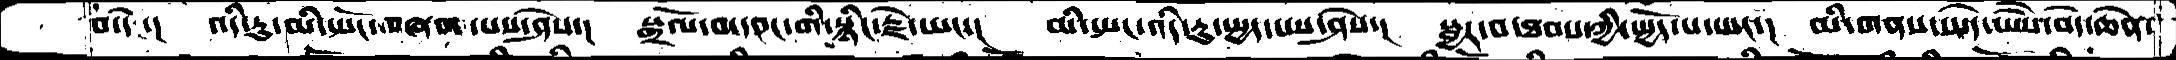བ་དེ་།  འདི་རུ་མི་སྤོང་བཞག་པས་ཤེས་།  སྒྲོལ་བ་དབང་གི་སྙིང་རྗེ་ཡང་།  མི་སྤང་འདི་རུ་སྤྱད་པས་ཤེས་།  སྦྱར་བ་ཐབས་ཀྱི་སྤྱོད་པ་ཡང་།  མི་གནས་ས་དེ་ཡཻས་བདེ་ཆེན་
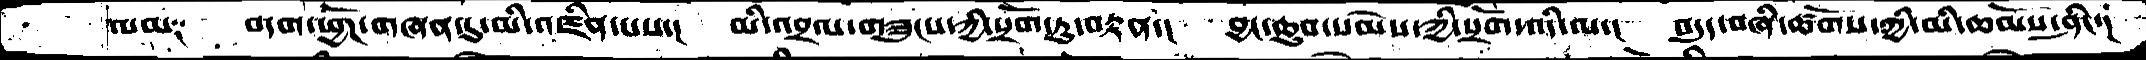ལམ༑   བདག་ཕྱོཌ་གཞན་དུ་མི་འཛིན་པས་།  མི་འབྲལ་གཟུངས་ཀྱི་སྲོག་ཏུ་བརྟན་།  བྱང་ཆུབ་སེམས་ཀྱི་སྲོག་འདི་ལ་།   བདུད་བཞི་ཚོགས་ཀྱི་མི་ཆོམས་ཤིང་།
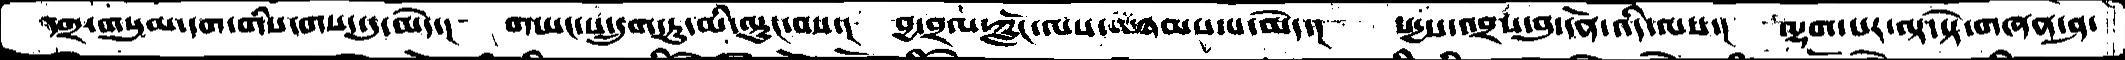དགྲ་གསུམ་དག་གིས་གསད་དུ་མེད་།   གཡང་ས་དྲུག་ཏུ་མི་ལྟུང་བས་།  བྱ་བྲལ་ཀློང་ལས་ཉམས་པ་མེད་།  སདྱས་འབྲས་བུ་དོན་འདི་ལས་།  ལྷག་པར་ལྟ་སྟེ་གཞན་ཤ་
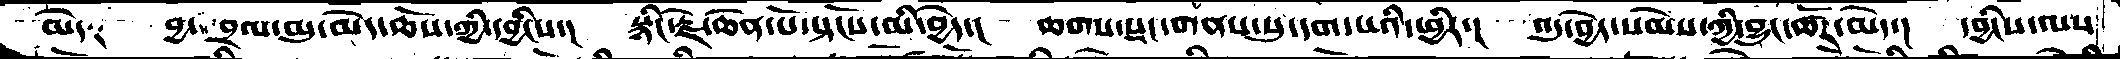མེད༑   བྱ་བྲལ་མུ་མེད་ཆོས་ཀྱི་དབྱིངས་།  སྙིང་རྗེ་ཆེན་པོ་སྟོངས་མི་བྱེད་།  ཆགས་སྡང་གནས་སུ་དག་པའི་ཕྱིར་།  འདུ་བྱེད་སེམས་ཀྱི་བྱུང་ཚོར་མེད་།  དབྱིངས་ལས
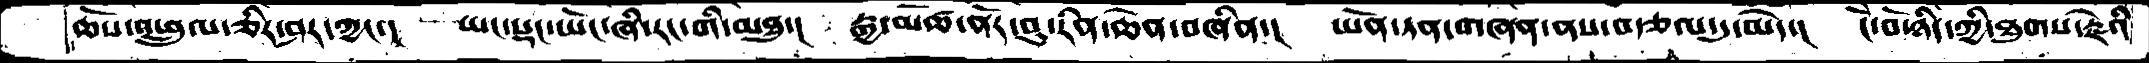ཆོས་འཕྲུལ་ཅིར་ཤར་ཀྱང་།  ཡང་སྡང་ཡོང་ཞི་རང་གི་མཐུ་།  རྒྱ་མཚོ་ནོར་བུ་རིན་ཆེན་བཞིན་།  ཡོན་ཏན་གཞན་ནས་བརྩལ་དུ་མེད་།  ངོ་བོ་ཉིད་ཀྱི་ཐུགས་རྗེའི
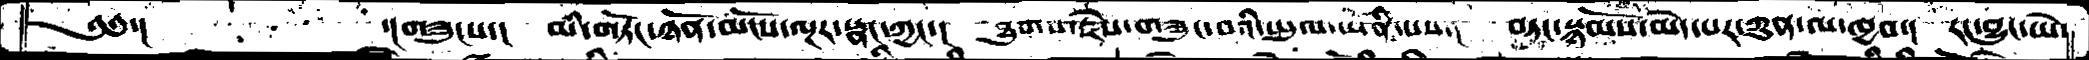༄༅་།        ་།གཟུངས་།  མི་གཏོང་ཉོན་མོངས་ལྔར་སྣང་ཀྱང་།  ཐུགས་རྗེས་གཟུང་བའི་ཡུལ་ཡིན་པས་།  བཏང་སྙོམས་མེད་པར་ཀུན་ལ་ཁྱབ་།  རང་བྱུང་ཡེ་
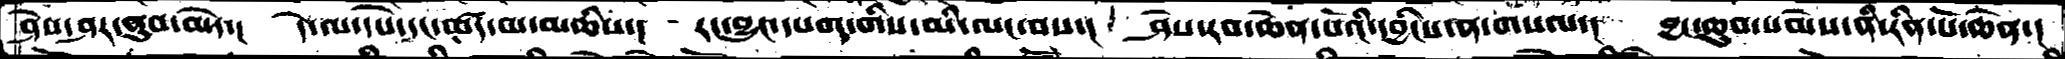ཤེས་ཤར་ནུབ་མེད་།  དེ་ལ་དཔེ་དང་ཚད་མ་མཆིས་།  རང་བྱུང་དཔག་གིས་མི་ལང་བས་།  ཤེས་རབ་ཆེན་པོའི་དབྱིངས་ན་གསལ་།  བྱང་ཆུབ་སེམས་ནི་རིན་པོ་ཆེན་།
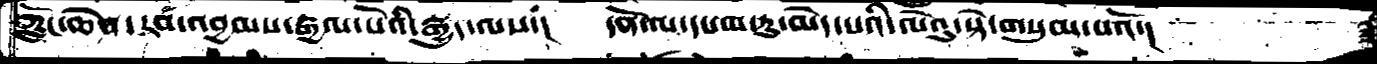ཀློང་ཆེན་རབ་འབྱྲམས་རྒྱལ་པོའི་རྒྱུད་ལས་།  དོན་ལ་དཔག་ཏུ་མེད་པའི་ལེའུ་སྟེ་གསུམ་པའོ་།
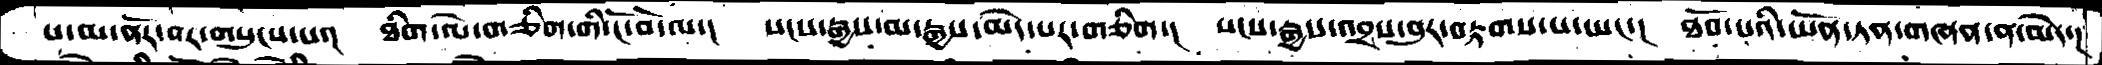པ་མ་ནོར་བར་གསུངས་པ་།  ཐིག་ལེ་གཅིག་གི་ངོ་བོ་ལ་།  སངས་རྒྱས་མ་རྒྱས་མེད་པར་གཅིག་།  སངས་རྒྱས་འབྲས་བུར་བརྟགས་པ་ཡང་།  ཐོབ་པའི་ཡོན་ཏན་གཞན་ན་མེད་།
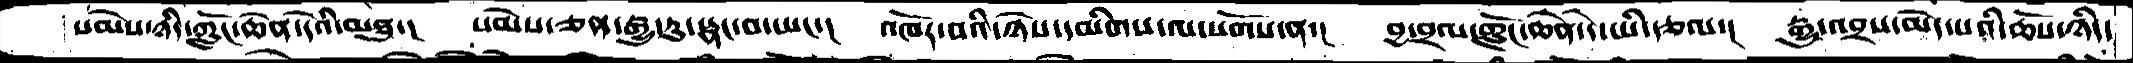སེམས་ཉིད་ཀློང་ཆེན་དེའི་མཐུ་།  སེམས་ཅན་རྒྱུ་རུ་སྣང་བ་ཡང་། འཁོར་བའི་ཉེས་དམིགས་ལ་སོགས་ན་།  བྱ་བྲལ་ཀློང་ཆེན་དེ་ཡི་རྩལ་།  རྒྱུ་འབྲས་མེད་པའི་ཆོས་ཉིད་
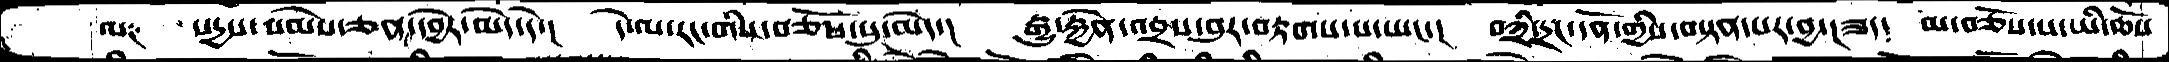ལ༑  སདྱས་སེམས་ཅན་དབྱེར་མེད་དེ་།  དེ་ལ་རང་གིས་བཅོས་སུ་མེད་།  རྒྱུ་རྐྱེན་འབྲས་བུར་བརྟགས་པ་ཡང་།  བཀྲི་དྲང་དོན་གྱིས་བསྟན་པར་བྱ་།ཟད༴ མ་བཅོས་པ་ཡི་ཆོས་
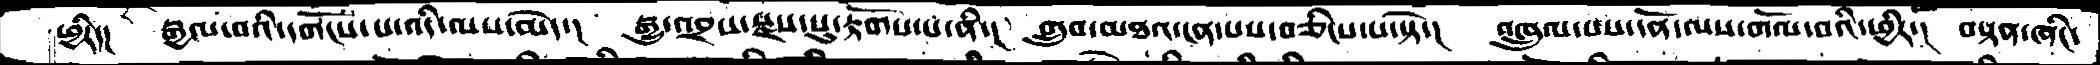ཕྱིར་།  རྒྱལ་བའི་དགོངས་པ་འདི་ལས་མེད་།  རྒྱུ་འབྲས་སྫས་སུ་རྟོགས་པ་ནི་།  གྲུབ་མཐའ་ངན་པས་བཅིངས་པ་སྟེ་།  འཁྲུལ་པས་དོན་ལས་གོལ་བའི་ཕྱིར་།  བསྟན་ཞིང་
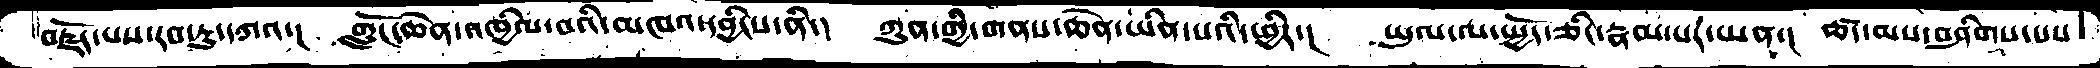བརྗོད་པས་རབ་ཏུ་དཀའ་།  ཀློང་ཆེན་འཁྱིལ་བའི་མཁའ་དབྱིངས་ནི་།  ཀུན་གྱི་གནས་ཆེན་ཡིན་པའི་ཕྱིར་།  ཡུལ་ལ་སྤྱོད་ཅིང་རྣམ་པར་ཡན་།  ཚད་མས་བཤིགས་པས་
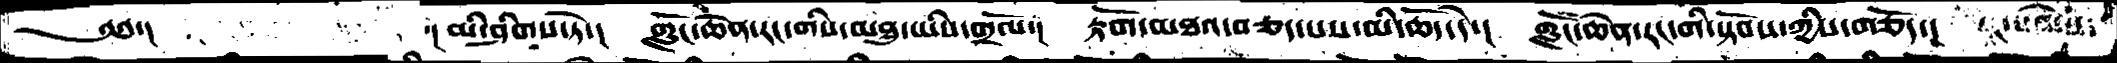༄༅་།  །མི་ཤིགས་ཏེ་། ཀློང་ཆེན་རང་གིས་མཐུ་ཡིས་གྲོལ་། རྟོག་མཐའ་བཅད་པས་མི་ཆོད་དེ་། ཀློང་ཆེན་རང་གི་སྟོབས་ཀྱིས་གཅོད་།
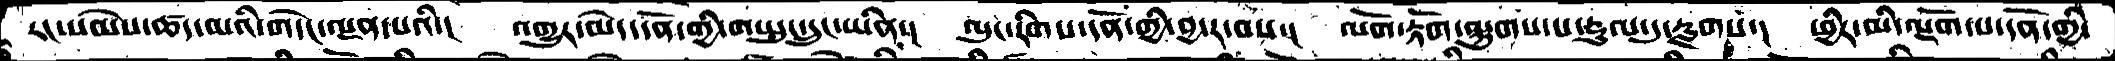རང་སེམས་ཚད་མའི་གདེང་ལྡན་པའི་།  འགྱུར་མེད་དོན་གྱི་གཡུང་དྲུང་ཡིན་།  ལུང་རིགས་དོན་གྱི་བྱ་ར་བས་།  ལོག་རྟོག་ལྐུགས་པ་རྡུལ་དུ་རླགས་།  ཕྱིར་མི་ལྡོག་པ་དོན་གྱི་
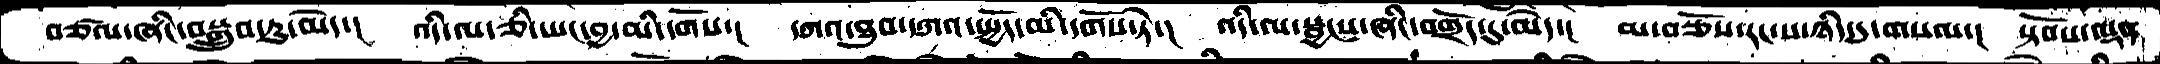བཙལ་ཞིང་བསྒྲུབ་ཏུ་མེད་།  འདི་ལ་ཅི་ཡང་བྱ་མི་དགོས་།  དཀའ་ཐུབ་དཀའ་སྤྱོད་མི་དགོས་ཏེ་།   འདི་ལ་སྦྱངས་ཞིང་བགྲོད་དུ་མེད་།  མ་བཅོས་རང་ས་ཉིད་དུ་གསལ་།  སྟོབས་ལྡན་
